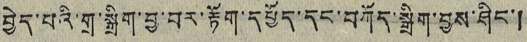བྱེད་པའི་གྲ་སྒྲིག་བྱ་བར་རྟོག་དཔྱོད་དང་བཀོད་སྒྲིག་བྱས་ཤིང་།
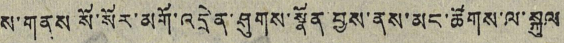ས་གནས སོ་སོར་མགོ་འདྲེན་ཤུགས་སྣོན་བྱས་ནས་མང་ཚོགས་ལ་སྐུལ
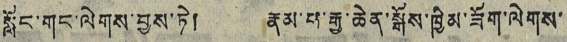སློང་གང་ལེགས་བྱས་ཏེ། རྣམ་པ་རྒྱ་ཆེན་སྒོས་ཁྱིམ་ཟོག་ལེགས་
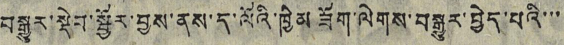བསྒྱུར་སྡེབ་སྦྱོར་བྱས་ནས་ད་ལོའི་ཁྱིམ ཟོག་ལེགས་བསྒྱུར་བྱེད་པའི་་་
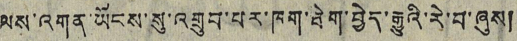ལས་འགན་ཡོངས་སུ་འགྲུབ་པར་ཁག་ཐེག་བྱེད་རྒྱུའི་རེ་བ་ཞུས།
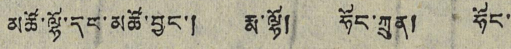མཚོ་ལྷོ་དཔུ་མཚོ་བྱང་། རྨ་ལྷོ། ཧོང་ཀྲུན། ཧོང་
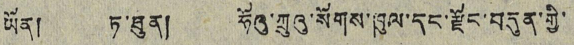ཡོན། ཏ་ཐུན། ཧོའུ་ཀྲུའུ་སོགས་ཁུལ་དང་རྫོང་བདུན་གྱི་
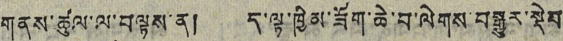གནས་ཚུལ་ལ་བལྟས་ན། ད་ལྟ་ཁྱིམ་ཟོག་ཆེ་བ་ལེགས་བསྒྱུར་སྡེབ་
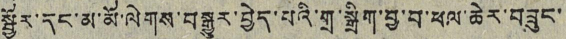སྦྱོར་དང་མ་མོ་ལེགས་བསྒྱུར་བྱེད་པའི་གྲ་སྒྲིག་བྱ་བ་ཕལ་ཆེར་བཟུང་
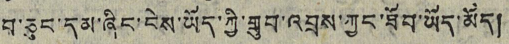བ་ཅུང་དམ་ཞིང་ངེས་ཡོད་ཀྱི་གྲུབ་འབྲས་ཀྱང་ཐོབ་ཡོད་མོད།
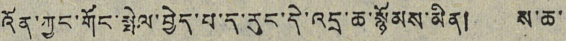འོན་ཀྱང་གོང་སྤེལ་བྱེད་པ་ད་རུང་དེ་འདྲ་ཆ་སྙོམས་མིན། ས་ཆ་
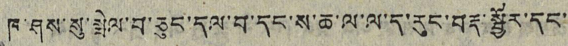ཁ་ཤས་སུ་སྤེལ་བ་ཅུང་དལ་བ་དང་ས་ཆ་ལ་ལ་ད་རུང་བརྡ་སྦྱོར་དང་
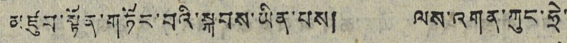མཛུབ་སྟོན་གཏོང་བའི་སྐབས་ཡིན་པས། ལས་འགན་ཀུང་ཧྲེ་
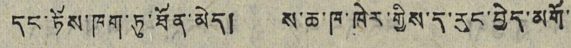དང་ཏོས་ཁག་ཏུ་ཐོན་མེད། ས་ཆ་ཁ་ཁེར་གྱིས་ད་རུང་བྱེད་མགོ་
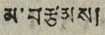མ་བརྩམས།
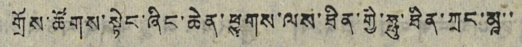གྲོས་ཚོགས་སྟེང་ཞིང་ཆེན་ཕྱུགས་ལས་ཟིན་གྱི་ཧྥུ་ཐིན་ཀྲང་མཱ་་
